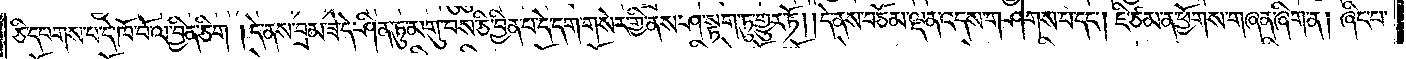ཅི་དཔགས་པ་དེ་ཁོ་བོ་ལ་བྱིན་ཅིག །དེ་ནས་བྲམ་ཟེ་དེ་ཤིན་ཏུ་མགུ་བས་ཅི་བྱིན་པ་དེ་དག་གསེར་གྱི་ནས་ཤ་སྟག་ཏུ་གྱུར་ཏེ། །དེ་ནས་བཅོམ་ལྡན་འདས་གཤེགས་པ་དང༌། ཇི་ཙམ་ན་ཕྱོགས་གཞན་ཞིག་ན། ཞིང་པ་
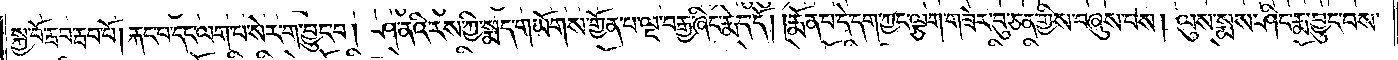སྐྱ་བོ་རྦབ་རྦབ་བོ། །རྐང་པ་དང་ལག་པ་སེར་ག་བྱུང་བ། ཤ་ནའི་རས་ཀྱི་སྨད་གཡོགས་གྱོན་པ་ལྔ་བརྒྱ་ཞིང་རྨེད་དོ། །རྨོན་པ་དེ་དག་ཀྱང་ལྕག་གཟེར་བུ་ཅན་གྱིས་བཞུས་པས། ལུས་སྨས་ཤིང་རྨ་བྱུང་བས་
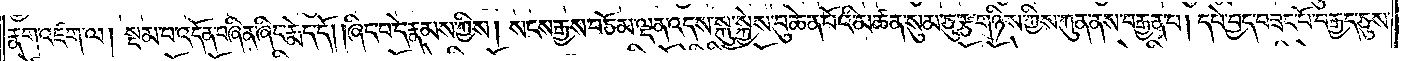རྣག་འཛག་ལ། སྡམ་པ་འདོན་བཞིན་ཞིང་རྨེད་དོ། །ཞིང་པ་དེ་རྣམས་ཀྱིས། སངས་རྒྱས་བཅོམ་ལྡན་འདས་སྐུ་སྐྱེས་བུ་ཆེན་པོའི་མཚན་སུམ་ཅུ་རྩ་གཉིས་ཀྱིས་ཀུན་ནས་བརྒྱན་པ། དཔེ་བྱས་བཟང་པོ་བརྒྱད་ཅུས་
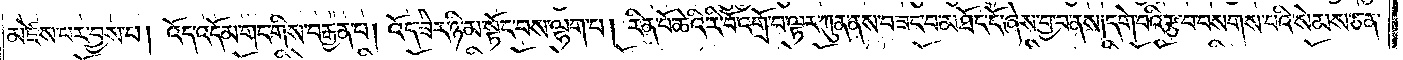མཛེས་པར་བྱས་པ། འོད་འདོམ་གང་གིས་བརྒྱན་པ། འོད་ཟེར་ཉི་མ་སྟོང་བས་ལྷག་པ། རིན་པོ་ཆེའི་རི་བི་འགྲོ་བ་ལྟར་ཀུན་ནས་བཟང་བ་མཐོང་ངོ་ཞེས་བྱ་བ་ནས། དགེ་བའི་རྩ་བ་བསགས་པའི་སེམས་ཅན་
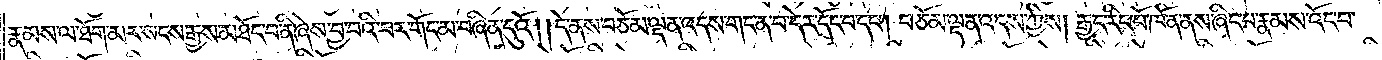རྣམས་ལ་ཐོག་མར་སངས་རྒྱས་མཐོང་བ་ནི་ཞེས་བྱ་བའི་བར་གོང་མ་བཞིན་དུའོ། །དེ་ནས་བཅོམ་ལྡན་འདས་གང་ན་བ་དེར་དོང་བ་དང༌། བཅོམ་ལྡན་འདས་ཀྱིས། རྒྱང་རིང་པོ་ཁོ་ན་ནས་ཞིང་པ་རྣམས་འོང་བ་
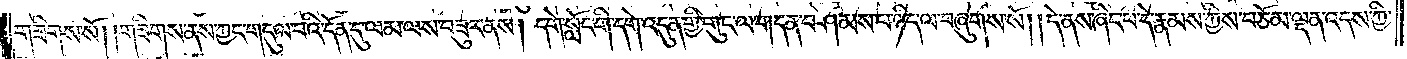གཟིགས་སོ། །གཟིགས་ནས་ཀྱང་གདུལ་བའི་དོན་དུ་ལམ་ལས་བཟུར་ནས། དགེ་སློང་གི་དགེ་འདུན་གྱི་གུང་ལ་གདན་བཤམས་པ་ཉིད་ལ་བཞུགས་སོ། །དེ་ནས་ཞིང་པ་དེ་རྣམས་ཀྱིས་བཅོམ་ལྡན་འདས་ཀྱི་
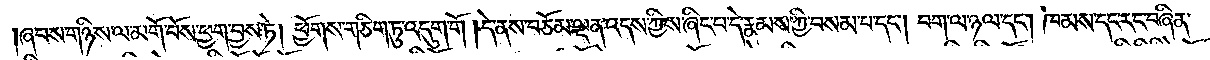ཞབས་གཉིས་ལ་མགོ་བོས་ཕྱག་བྱས་ཏེ། ཕྱོགས་གཅིག་ཏུ་འདུག་གོ། །དེ་ནས་བཅོམ་ལྡན་འདས་ཀྱིས་ཞིང་པ་དེ་རྣམས་ཀྱིས་བསམ་པ་དང༌། བག་ལ་ཉལ་དང༌། ཁམས་དང་རང་བཞིན་
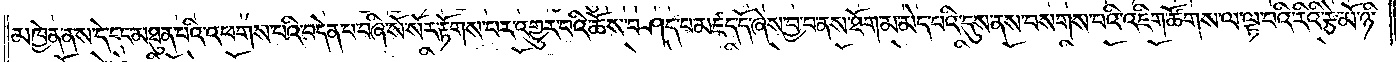མཁྱེན་ནས་དེ་དང་མཐུན་པའི་འཕགས་པའི་བདེན་པ་བཞི་སོ་སོར་རྟོགས་པར་འགྱུར་བའི་ཆོས་བཤད་པ་མཛད་དོ་ཞེས་བྱ་བ་ནས་ཐོག་མ་མེད་པའི་དུས་ནས་བསགས་པའི་འཇིག་ཚོགས་ལ་ལྟ་བའི་རིའི་རྩེ་མོ་ཉི་
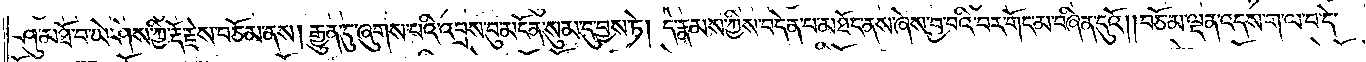ཤུ་མཐོ་བ་ཡེ་ཤེས་ཀྱི་རྡོ་རྗེས་བཅོམ་ལྡན་ནས། རྒྱུན་དུ་ཞུགས་པའི་འབྲས་བུ་མངོན་སུམ་དུ་བྱས་ཏེ། དེ་རྣམས་ཀྱིས་བདེན་པ་མཐོང་ནས་ཞེས་བྱ་བའི་བར་གོང་མ་བཞིན་དུའོ། །བཅོམ་ལྡན་འདས་ག་ལ་བ་དེ་
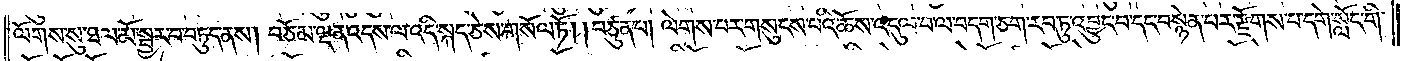ལོགས་སུ་ཐལ་མོ་སྦྱར་བ་བཏུད་ནས། བཅོམ་ལྡན་འདས་ལ་འདི་སྐད་ཅེས་གསོལ་ཏོ། །བཙུན་པ། ལེགས་པར་གསུངས་པའི་ཆོས་འདུལ་བ་ལ་བདག་ཅག་རབ་ཏུ་འབྱུང་བ་དང་བསྙེན་པར་རྫོགས་པ་དགེ་སློང་གི་
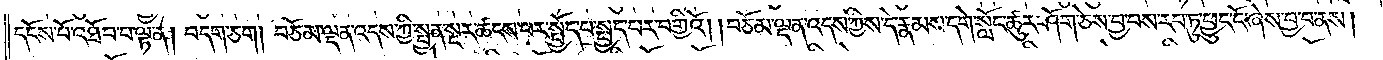དངོས་པོ་འཐོབ་པ་ལྟ་ན། བདག་ཅག །བཅོམ་ལྡན་འདས་ཀྱིས་སྤྱན་སྔར་ཚངས་པར་སྤྱོད་པ་སྤྱད་པར་བགྱིའོ། །བཅོམ་ལྡན་འདས་ཀྱིས་དེ་རྣམས་དགེ་སློང་ཚུར་ཤོག་ཅེས་བྱ་བས་རབ་ཏུ་ཕྱུང་ངོ་ཞེས་བྱ་བ་ནས།
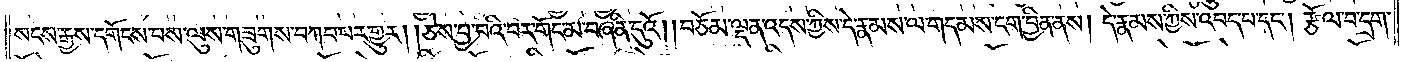སངས་རྒྱས་དགོངས་པས་ལུས་གཟུགས་པ་བཀབ་པར་གྱུར། ཅེས་བྱ་བའི་བར་གོང་མ་བཞིན་དུའོ། །བཅོམ་ལྡན་འདས་ཀྱིས་དེ་རྣམས་ལ་གདམས་ངག་བྱིན་ནས། དེ་རྣམས་ཀྱིས་འབད་པ་དང༌། རྩལ་བ་དྲག་
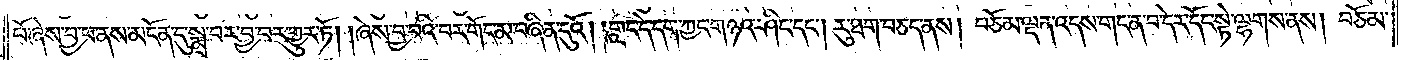པོ་ཞེས་བྱ་བ་ནས་མངོན་དུ་སྨྲ་བར་བྱ་བར་གྱུར་ཏོ། །ཞེས་བྱ་བའི་བར་གོང་མ་བཞིན་དུའོ། །གླང་དེ་དག་ཀྱང་གཉའ་ཤིང་དང༌། རུ་ཐག་བཅད་ནས། བཅོམ་ལྡན་འདས་གང་ན་བ་དེར་དོང་སྟེ་ལྷགས་ནས། བཅོམ་
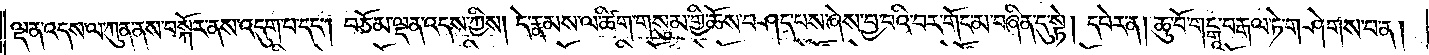ལྡན་འདས་ལ་ཀུན་ནས་བསྐོར་ནས་འདུག་པ་དང༌། བཅོམ་ལྡན་འདས་ཀྱིས། དེ་རྣམས་ལ་ཚིག་གསུམ་གྱི་ཆོས་བཤད་པ་ཞེས་བྱ་བའི་བར་གོང་མ་བཞིན་དུ་སྟེ། དཔེར་ན། ཆུ་བོ་གངྒཱ་བརྒལ་ཏེ་གཤེགས་པ་ན།
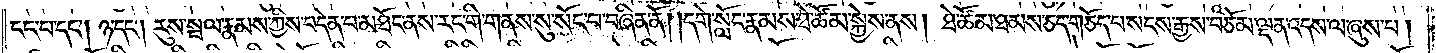ངང་པ་དང༌། ཉ་དང༌། རུས་སྦལ་རྣམས་ཀྱིས་བདེན་པ་མཐོང་ནས་རང་གི་གནས་སུ་སོང་བ་བཞིན་ནོ། །དགེ་སློང་རྣམས་ཐེ་ཚོམ་སྐྱེས་ནས། ཐེ་ཚོམ་ཐམས་ཅད་གཅོད་པ་སངས་རྒྱས་བཅོམ་ལྡན་འདས་ལ་ཞུས་པ།
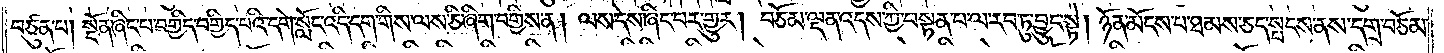བཙུན་པ། སྔོན་ཞིང་པ་བགྱིད་བགྱིད་པའི་དགེ་སློང་འདི་དག་གིས་ལས་ཅི་ཞིག་བགྱིས་ན། ལས་དེས་ཞིང་པར་གྱུར། བཅོམ་ལྡན་འདས་ཀྱིས་བསྟན་པ་ལ་རབ་ཏུ་བྱུང་སྟེ། ཉོན་མོངས་པ་ཐམས་ཅད་སྤངས་ནས་དགྲ་བཅོམ་
